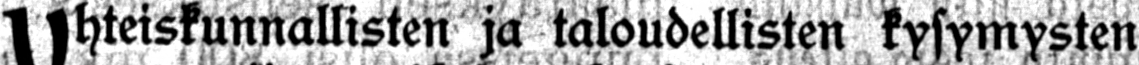Yhteiskunnallisten ja taloudellisten kysymysten harrastus
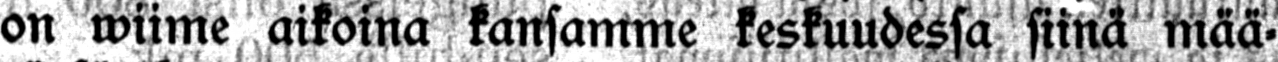on wiime aikoina kansamme keskuudessa siinä mää-
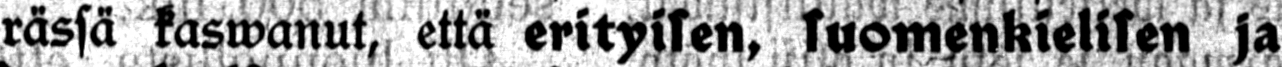rässä kaswanut, että erityisen, suomenkielisen ja
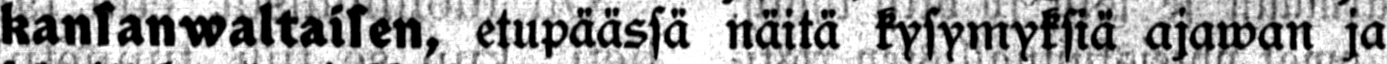kansanwaltaisen, etupäässä näitä kysymyksiä ajawan ja
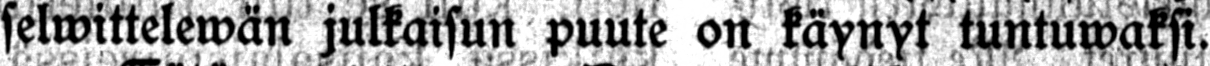selwittelewän julkaisun puute on käynyt tuntuwaksi.
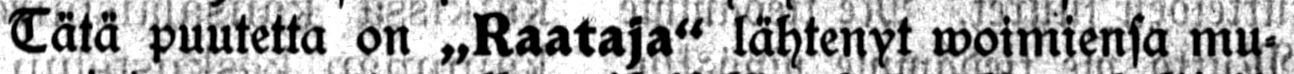Tätä puutetta on „Raataja" lähtenyt woimiensa mu-
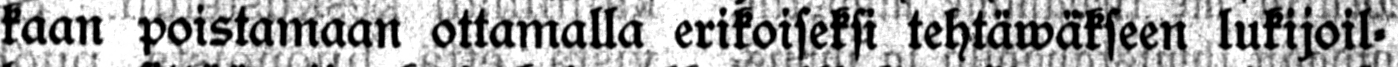kaan poistamaan ottamalla erikoiseksi tehtäwäkseen lukijoil-
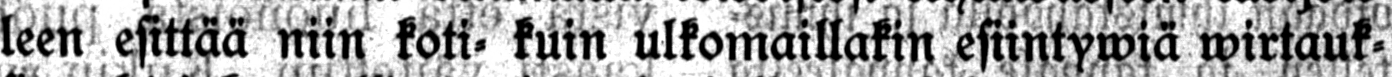leen esittää niin koti- kuin ulkomaillakin esiintywiä wirtauk-
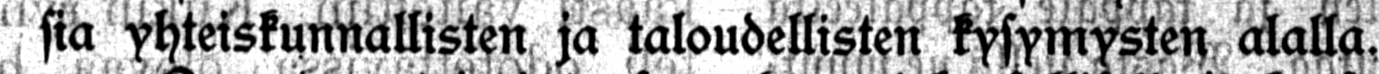sia yhteiskunnallisten ja taloudellisten kysymysten alalla,
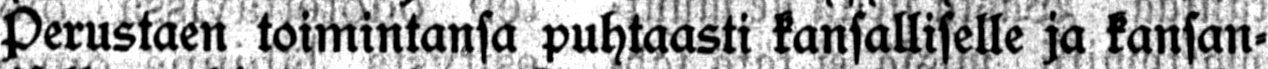Perustaen toimintansa puhtaasti kansalliselle ja kansan-
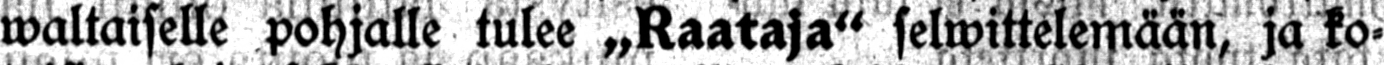waltaiselle pohjalle tulee „Raataja" selwittelemään, ja ko-
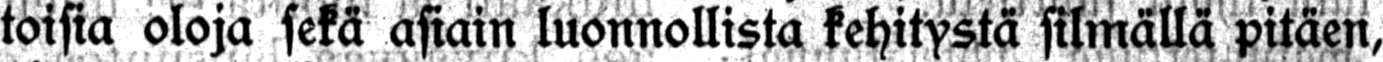toisia oloja sekä asiain luonnollista kehitystä silmällä pitäen,
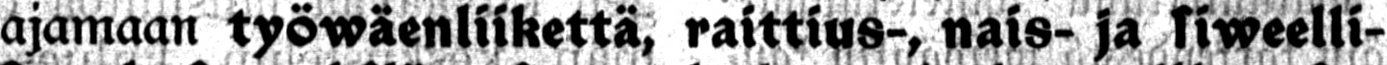ajamaan työwäenliikettä, raittius, nais- ja siweelli-
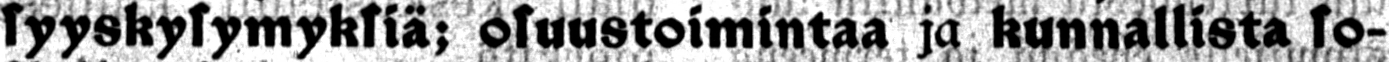syyskysymyksiä; osuustoimintaa ja kunnallista so-
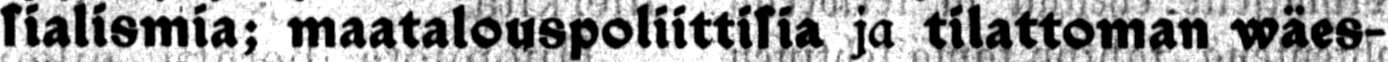sialismia; maatalouspoliittisia ja tilattoman wäes-
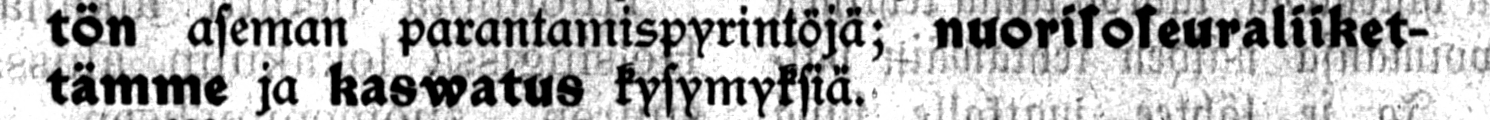tön aseman parantamispyrintöjä; nuorisoseuraliiket-
